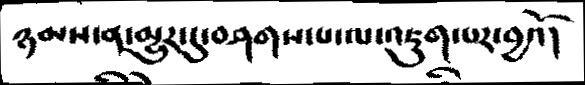ཉམས་ན་མྱུར་དུ་བཤགས་པ་ལ་འཇུག་པར་བྱའོ།
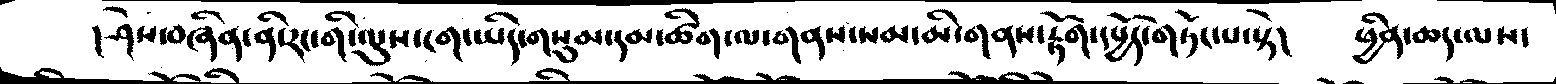།ཤེས་བཞིན་ནི་རང་གི་ལུས་ངག་ཡིད་གསུམ་དམ་ཚིག་ལ་གནས་སམ་མི་གནས་རྟོག་དཔྱོད་གཏོང་པ་སྟེ།   ཕྱིན་ཆད་ལས་
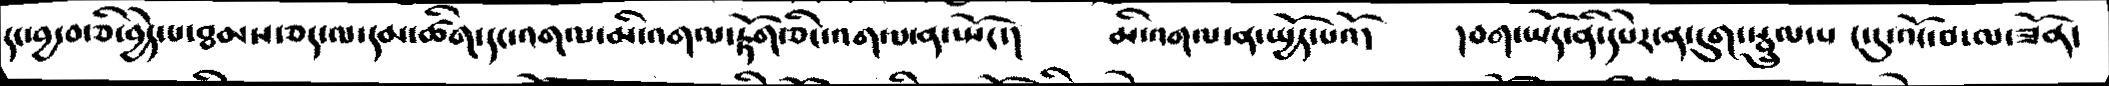དང་བྱ་བ་ཅི་བྱེད་པ་ཐམས་ཅད་ལ་དམ་ཚིག་དང་འགལ་མི་འགལ་རྟོག་ཅིང་འགལ་ན་སྤོང་།   མི་འགལ་ན་སྤྱོད་པའོ།   །བག་ཡོད་ནི་དཔེར་ན་དུག་སྦྲུལ་པ ང་དུ་འོང་བ་ལ་ཟོན་
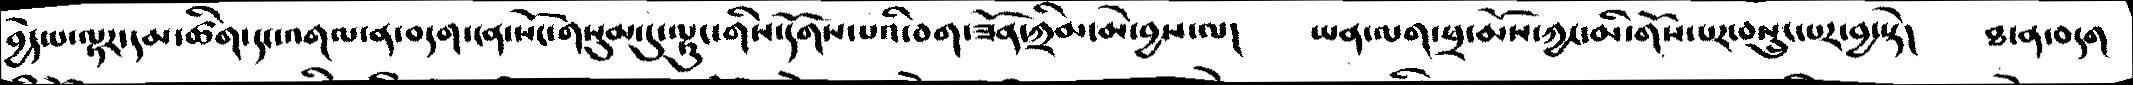བྱེད་པ་ལྟར་དམ་ཚིག་དང་འགལ་ན་བདག་ངན་སོང་གསུམ་དུ་ལྟུང་གིས་དོགས་པའི་བག་ཟོན་ཀྲིམ་མེ་བྱས་ལ།   ཡན་ལག་ཕྲ་མོས་ཀྱང་མི་གོས་པར་བསྲུང་པར་བྱ་སྟེ།   ཐ་ན་བདག
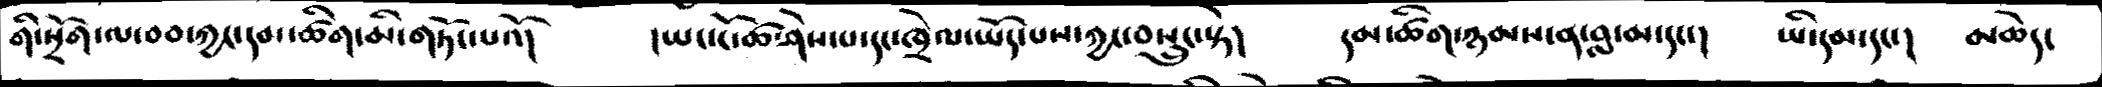གི་སྲོག་ལ་བབ་ཀྱང་དམ་ཚིག་གཏོང་པའོ།   །ཡང་ངོ་ཚ་ཤེས་པ་དང་ཁྲེལ་ཡོད་པས་ཀྱང་བསྲུང་སྟེ།   དམ་ཚིག་ཉམས་ན་བླ་མ་དང་།   ཡི་དམ་དང་།   མཆེད་
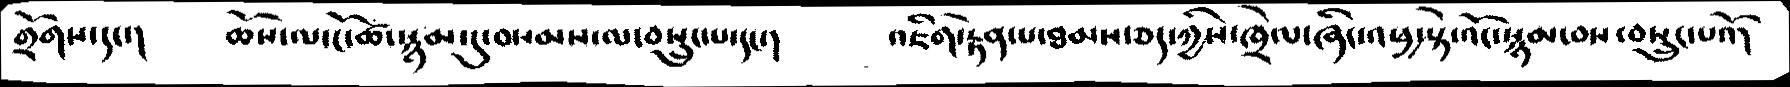གྲོགས་དང་།   ཆོས་ལ་ངོ་ཚ་སྙམ་དུ་བསམས་ལ་བསྲུང་པ་དང་།   འཇིག་རྟེན་པ་ཐམས་ཅད་ཀྱིས་ཁྲེལ་ཞིང་འཕྱ་སྟེ་འོང་སྙམ་བས་བསྲུང་པའོ།
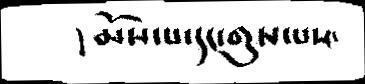།མོས་པ་དང་གུས་པས་
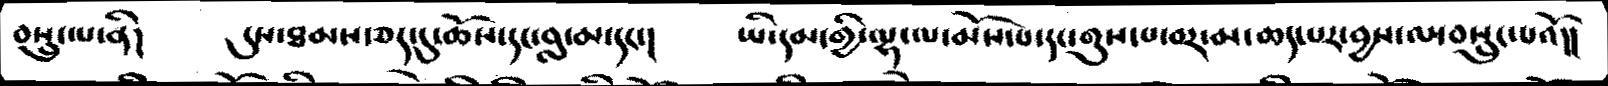བསྲུང་པ་ནི།   དུས་ཐམས་ཅད་དུ་ཆོས་དང་བླ་མ་དང་།   ཡི་དམ་ཀྱི་ལྷ་ལ་མོས་པ་དང་གུས་པ་བར་མ་ཆད་པར་བྱས་ལ་བསྲུང་པའོ།།
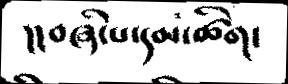།།བཞི་པ་དམ་ཚིག་
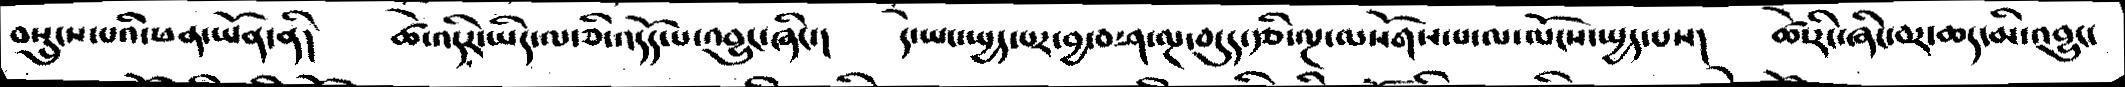བསྲུངས་པའི་ཕན་ཡོན་ནི།   ཚེ་འདིར་ཡིད་ལ་ཅི་འདོད་པ་འབྱུང་ཞིང་།  དེ་ཡང་སྤྱད་པར་བྱ་བ་ཤ་ལྔ་བདུད་རྩི་ལྔ་ལསོགས་པ་ལ་ལོངས་སྤྱད་པས།   ཚེ་རིང་ཞིང་བར་ཆད་མི་འབྱུང་
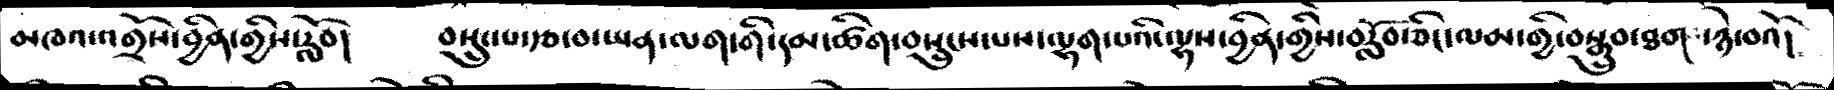མཁའ་འགྲོས་བྱིན་གྱིས་རློབ།   བསྲུང་པ་རྩ་བ་ཡན་ལག་གི་དམ་ཚིག་བསྲུངས་པས་ལྷག་པའི་ལྷས་བྱིན་གྱིས་བརློབ་ཅིང་ལམ་གྱི་བསྒྲུབ་ཐག་ཉེ་བའོ།
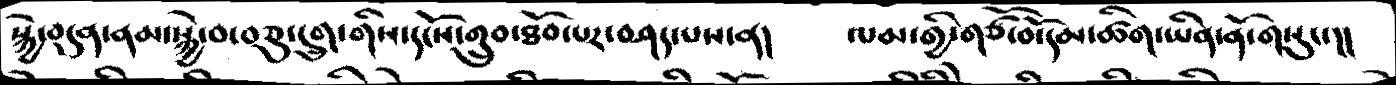སྐྱེ་བདུན་ནམ་སྐྱེ་བ་བཅུ་དྲུག་གིས་དངོས་གྲུབ་ཐོབ་པར་བཤད་པས་ན།     ལམ་གྱི་གཙོ་བོ་དམ་ཚིག་ཡིན་ནོ་གསུང་།།
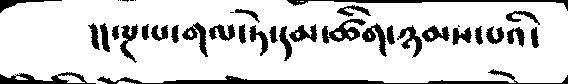།།ལྔ་པ་གལ་ཏེ་དམ་ཚིག་ཉམས་པའི་
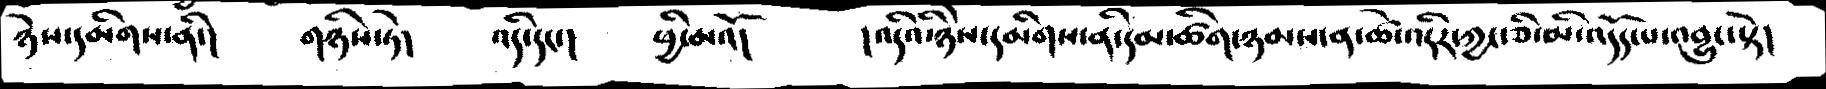ཉེས་དམིགས་ནི་།   གཉིས་ཏེ།   འདི་དང་།   ཕྱི་མའོ།   །འདིའི་ཉེས་དམིགས་ནི་དམ་ཚིག་ཉམས་ན་ཚེ་འདིར་ཀྱང་ཅི་མི་འདོད་པ་འབྱུང་སྟེ།
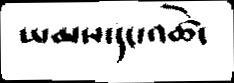ཡམས་དང་འཚེ་
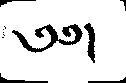༄༅།
